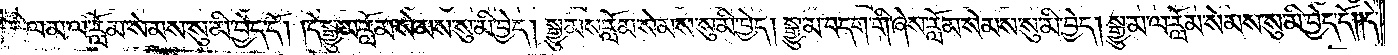རྨི་ལམ་ལ་རློམ་སེམས་སུ་མི་བྱེད་དོ། །དེ་སྒྱུ་མ་རློམ་སེམས་སུ་མི་བྱེད། སྒྱུ་མས་རློམ་སེམས་སུ་མི་བྱེད། སྒྱུ་མ་བདག་གི་ཞེས་རློམ་སེམས་སུ་མི་བྱེད། སྒྱུ་མ་ལ་རློམ་སེམས་སུ་མི་བྱེད་དོ། །དེ་
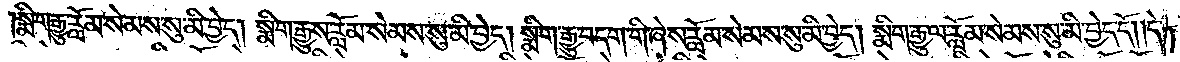སྨིག་རྒྱུ་རློམ་སེམས་སུ་མི་བྱེད། སྨིག་རྒྱུས་རློམ་སེམས་སུ་མི་བྱེད། སྨིག་རྒྱུ་བདག་གི་ཞེས་རློམ་སེམས་སུ་མི་བྱེད། སྨིག་རྒྱུ་ལ་རློམ་སེམས་སུ་མི་བྱེད་དོ། །དེ་
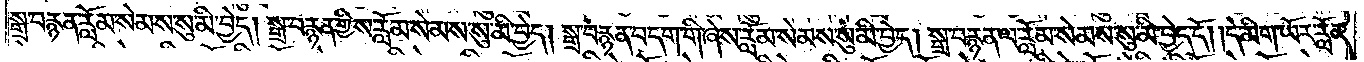སྒྲ་བརྙན་རློམ་སེམས་སུ་མི་བྱེད། སྒྲ་བརྙན་གྱིས་རློམ་སེམས་སུ་མི་བྱེད། སྒྲ་བརྙན་བདག་གི་ཞེས་རློམ་སེམས་སུ་མི་བྱེད། སྒྲ་བརྙན་ལ་རློམ་སེམས་སུ་མི་བྱེད་དོ། །དེ་མིག་ཡོར་རློམ་
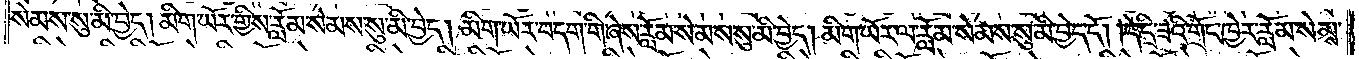སེམས་སུ་མི་བྱེད། མིག་ཡོར་གྱིས་རློམ་སེམས་སུ་མི་བྱེད། མིག་ཡོར་བདག་གི་ཞེས་རློམ་སེམས་སུ་མི་བྱེད། མིག་ཡོར་ལ་རློམ་སེམས་སུ་མི་བྱེད་དོ། །དེ་དྲི་ཟའི་གྲོང་ཁྱེར་རློམ་སེམས་
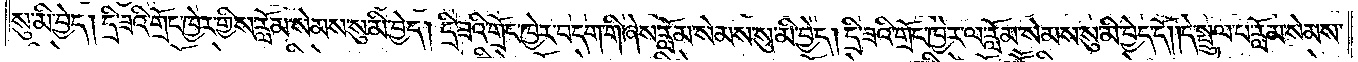སུ་མི་བྱེད། དྲི་ཟའི་གྲོང་ཁྱེར་གྱིས་རློམ་སེམས་སུ་མི་བྱེད། དྲི་ཟའི་གྲོང་ཁྱེར་བདག་གི་ཞེས་རློམ་སེམས་སུ་མི་བྱེད། དྲི་ཟའི་གྲོང་ཁྱེར་ལ་རློམ་སེམས་སུ་མི་བྱེད་དོ། །དེ་སྤྲུལ་པ་རློམ་སེམས་
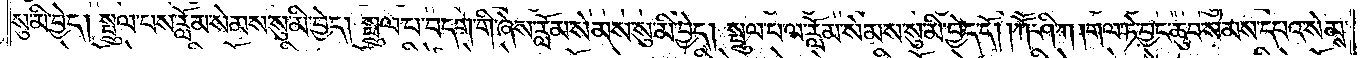སུ་མི་བྱེད། སྤྲུལ་པས་རློམ་སེམས་སུ་མི་བྱེད། སྤྲུལ་པ་བདག་གི་ཞེས་རློམ་སེམས་སུ་མི་བྱེད། སྤྲུལ་པ་ལ་རློམ་སེམས་སུ་མི་བྱེད་དོ། །ཀཽ་ཤི་ཀ། གལ་ཏེ་བྱང་ཆུབ་སེམས་དཔའ་སེམས་
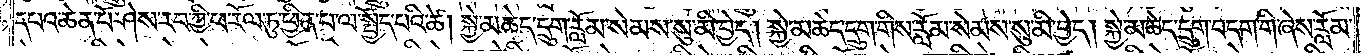དཔའ་ཆེན་པོ་ཤེས་རབ་ཀྱི་ཕ་རོལ་ཏུ་ཕྱིན་པ་ལ་སྤྱོད་པའི་ཚེ། སྐྱེ་མཆེད་དྲུག་རློམ་སེམས་སུ་མི་བྱེད། སྐྱེ་མཆེད་དྲུག་གིས་རློམ་སེམས་སུ་མི་བྱེད། སྐྱེ་མཆེད་དྲུག་བདག་གི་ཞེས་རློམ་
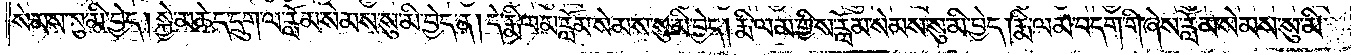སེམས་སུ་མི་བྱེད། སྐྱེ་མཆེད་དྲུག་ལ་རློམ་སེམས་སུ་མི་བྱེད་ན། དེ་རྨི་ལམ་རློམ་སེམས་སུ་མི་བྱེད། རྨི་ལམ་གྱིས་རློམ་སེམས་སུ་མི་བྱེད། རྨི་ལམ་བདག་གི་ཞེས་རློམ་སེམས་སུ་མི་
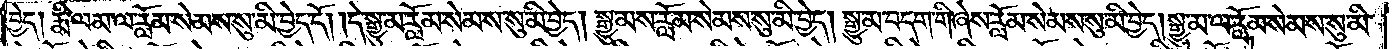བྱེད། རྨི་ལམ་ལ་རློམ་སེམས་སུ་མི་བྱེད་དོ། །དེ་སྒྱུ་མ་རློམ་སེམས་སུ་མི་བྱེད། སྒྱུ་མས་རློམ་སེམས་སུ་མི་བྱེད། སྒྱུ་མ་བདག་གི་ཞེས་རློམ་སེམས་སུ་མི་བྱེད། སྒྱུ་མ་ལ་རློམ་སེམས་སུ་མི་
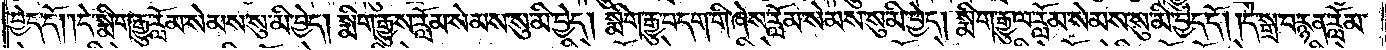བྱེད་དོ། །དེ་སྨིག་རྒྱུ་རློམ་སེམས་སུ་མི་བྱེད། སྨིག་རྒྱུས་རློམ་སེམས་སུ་མི་བྱེད། སྨིག་རྒྱུ་བདག་གི་ཞེས་རློམ་སེམས་སུ་མི་བྱེད། སྨིག་རྒྱུ་ལ་རློམ་སེམས་སུ་མི་བྱེད་དོ། །དེ་སྒྲ་བརྙན་རློམ་
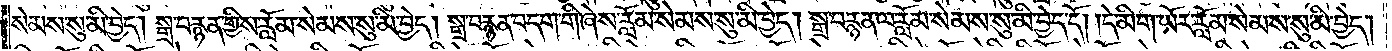སེམས་སུ་མི་བྱེད། སྒྲ་བརྙན་གྱིས་རློམ་སེམས་སུ་མི་བྱེད། སྒྲ་བརྙན་བདག་གི་ཞེས་རློམ་སེམས་སུ་མི་བྱེད། སྒྲ་བརྙན་ལ་རློམ་སེམས་སུ་མི་བྱེད་དོ། །དེ་མིག་ཡོར་རློམ་སེམས་སུ་མི་བྱེད།
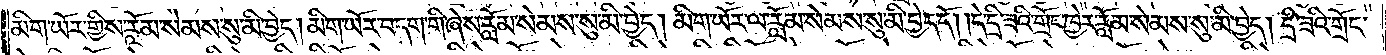མིག་ཡོར་གྱིས་རློམ་སེམས་སུ་མི་བྱེད། མིག་ཡོར་བདག་གི་ཞེས་རློམ་སེམས་སུ་མི་བྱེད། མིག་ཡོར་ལ་རློམ་སེམས་སུ་མི་བྱེད་དོ། །དེ་དྲི་ཟའི་གྲོང་ཁྱེར་རློམ་སེམས་སུ་མི་བྱེད། དྲི་ཟའི་གྲོང་
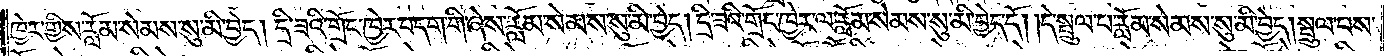ཁྱེར་གྱིས་རློམ་སེམས་སུ་མི་བྱེད། དྲི་ཟའི་གྲོང་ཁྱེར་བདག་གི་ཞེས་རློམ་སེམས་སུ་མི་བྱེད། དྲི་ཟའི་གྲོང་ཁྱེར་ལ་རློམ་སེམས་སུ་མི་བྱེད་དོ། །དེ་སྤྲུལ་པ་རློམ་སེམས་སུ་མི་བྱེད། སྤྲུལ་པས་
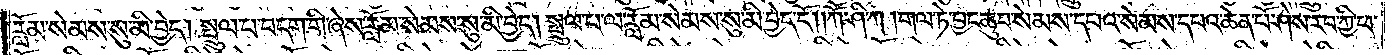རློམ་སེམས་སུ་མི་བྱེད། སྤྲུལ་པ་བདག་གི་ཞེས་རློམ་སེམས་སུ་མི་བྱེད། སྤྲུལ་པ་ལ་རློམ་སེམས་སུ་མི་བྱེད་དོ། །ཀཽ་ཤི་ཀ། གལ་ཏེ་བྱང་ཆུབ་སེམས་དཔའ་སེམས་དཔའ་ཆེན་པོ་ཤེས་རབ་ཀྱི་ཕ་
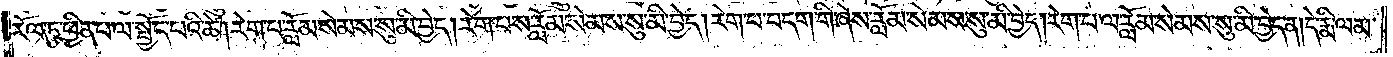རོལ་ཏུ་ཕྱིན་པ་ལ་སྤྱོད་པའི་ཚེ། རེག་པ་རློམ་སེམས་སུ་མི་བྱེད། རེག་པས་རློམ་སེམས་སུ་མི་བྱེད། རེག་པ་བདག་གི་ཞེས་རློམ་སེམས་སུ་མི་བྱེད། རེག་པ་ལ་རློམ་སེམས་སུ་མི་བྱེད་ན། དེ་རྨི་ལམ་
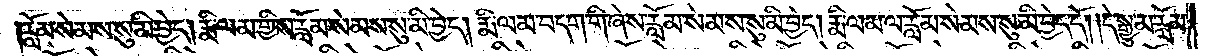རློམ་སེམས་སུ་མི་བྱེད། རྨི་ལམ་གྱིས་རློམ་སེམས་སུ་མི་བྱེད། རྨི་ལམ་བདག་གི་ཞེས་རློམ་སེམས་སུ་མི་བྱེད། རྨི་ལམ་ལ་རློམ་སེམས་སུ་མི་བྱེད་དོ། །དེ་སྒྱུ་མ་རློམ་
